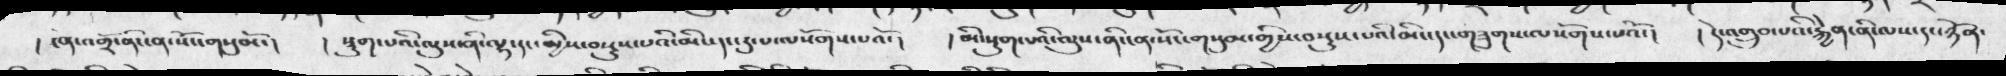། ངན་འགྲོ་ནི་ངན་སོང་གསུམོ་།  ། སྡུག་པའི་ལུས་ནི་ལྷ་དང་མྱིས་བསྡུས་པའི་མིང་དང་རུ་པ་ལསོགས་པའོ་།  །  མི་སྡུག་པའི་ལུས་ནི་ངན་སོང་གསུམ་གྱིས་བསྡུས་པའི་མིང་དང་གཟུགས་ལསོགས་པའོ་།  ། དེ་འགྲུབ་པའི་རྐྱེན་ནི་ལས་དང་ཉོན་
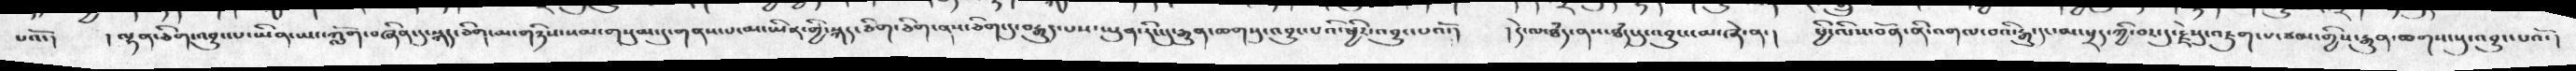པའོ་།  ། ལྷན་ཅིག་འབྱུང་པ་ཡིན་ཡང་ཀློག་བཞིན་དུ་སྐད་ཅིག་མ་གཉིས་སམ་གསུམ་དུ་གནས་པ་མ་ཡིན་གྱི་སྐད་ཅིག་ཅིག་ནས་ཅིག་དུ་བརྒྱུད་པས་ཡུན་རིང་དུ་རྒྱུན་ཆགསུ་འབྱུང་པའི་ཕྱིར་འབྱུང་པའོ་།  ། དེ་ལ་ཐཾད་ནས་ཐཾད་དུ་འབྱུང་ངམ་ཞེ་ན་།  པྱི་འི་ས་བོན་ནི་འགལ་བའི་རྒྱུ་དང་མ་ཕྲད་ཀྱི་བར་དུ་རྗེསུ་འཇུག་པ་ཙམ་གྱིས་རྒྱུན་ཆགས་པུ་འབྱུང་པའོ་།
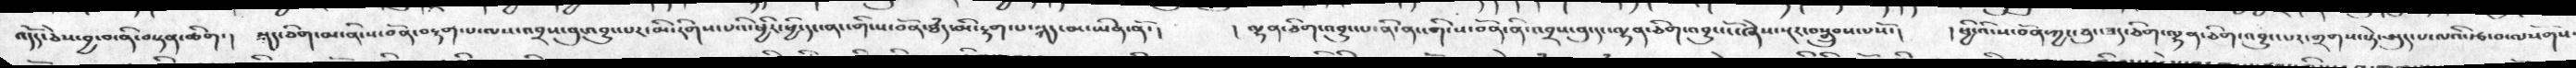འདོད་ཅེས་བྱ་བ་ནི་བསྟན་ཆིག་།  སྐད་ཅིག་མ་ནི་ས་བོན་བརྟག་པ་ལས་འབྲས་བུ་འབྱུང་པར་མི་རིགས་པའི་ཕྱིར་ཕྱི་དང་ནང་གི་ས་བོན་ཐཾད་མི་རྟག་པ་སྐད་མ་ཡིན་ནོ་།   ། ལྷན་ཅིག་འབྱུང་པ་ནི་ནང་གི་ས་བོན་ནི་འབྲས་བུ་དང་ལྷན་ཅིག་འབྱུང་ངོ་ཞེས་སྔར་བསྒྲུབས་པསོ་།  ། ཕྱིའི་ས་བོན་ཀྱང་ཅུང་ཟད་ཅིག་ལྷན་ཅིག་འབྱུང་པར་གྲགས་སྟེ་མུད་པ་ལའི་རྩ་བ་ལསོགས
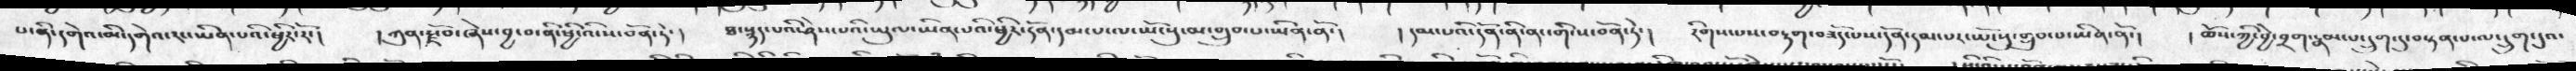པ་ནི་དགེའ་མི་དགེའ་རང་ཡིན་པའི་ཕྱིར་རོ་།  ། ཀུན་རྫོབ་ཞེས་བྱ་བ་ནི་ཕྱིའི་ས་བོན་ཏེ་།  ཐ་སྙད་པའི་ཤེས་པའི་ཡུལ་ཡིན་པའི་ཕྱིར་དོན་དམ་པ་ལ་ཡོངསུ་མ་གྲུབ་པ་ཡིན་ནོ་།  ། དམ་པའི་དོན་ནི་ནང་གི་ས་བོན་ཏེ་།  རིགས་པས་བརྟག་བཟོད་པས་དོན་དམ་པར་ཡོངསུ་གྲུབ་པ་ཡིན་ནོ་།  ། ཆོས་ཀྱི་བྱེ་བྲག་རྣམས་པ་དྲུག་དུ་བསྟན་པ་ལ་དྲུག་དུའ་
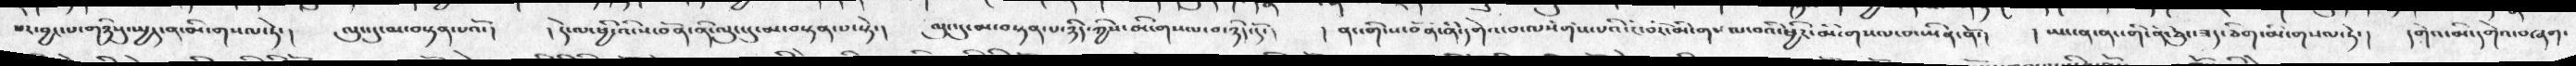པར་བྱང་པ་གཉིསུ་སྤྱད་ན་མི་གསལ་ཏེ་།  ལུང་དུ་མ་བསྟན་པའོ་།  ། དེ་ལ་ཕྱི་འི་ས་བོན་ནི་ལུང་དུ་མ་བསྟན་པ་སྟེ་།  ལུང་དུ་མ་བསྟན་པ་ཉིད་ཀྱིས་མི་གསལ་བ་ཉིད་དོ་།  ། ནང་གི་ས་བོན་ནི་དགེའ་བ་ལསོགས་པའི་ངོ་བོར་མི་གསལ་བའི་ཕྱིར་མི་གསལ་བ་ཡིན་ནོ་།  ། ཡང་ན་ནང་གི་ནི་ཅུང་ཟད་ཅིག་མི་གསལ་ཏེ་།  དགེའ་མི་དགེའ་བཞག་
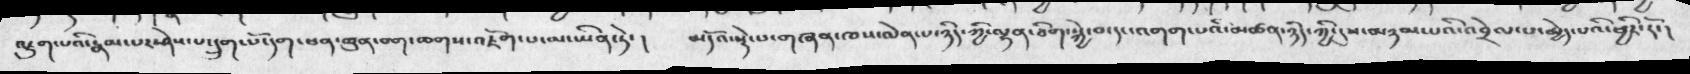འཇུག་པའི་རྣམ་པར་ཤེས་པ་དྲུག་པོ་དག་ཕན་ཚུན་བག་ཆགས་འཇོག་པ་མ་ཡིན་ཏེ་།  མདོའ་སྡེ་པ་གཞན་ཁས་ལེན་པ་ཉིད་ཀྱི་ལྷན་ཅིག་སྐྱེ་བ་དང་འགག་པའི་མཚན་ཉིད་ཀྱི་དུས་མཉམ་པའི་འབྲེལ་པ་མྱེད་པའི་ཕྱིར་རོ་།
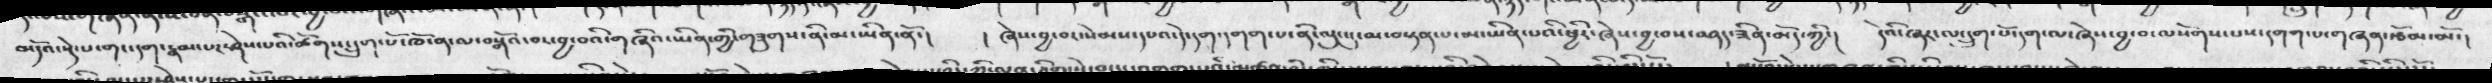མདོའ་སྡེ་པ་གང་དག་རྣམ་པར་ཤེས་པའི་ཚོགས་དྲུག་པོ་ཁོ་ན་ལ་བསྒོའ་བར་བྱ་བའི་གཞིའ་ཡིན་གྱི་གཟུགས་ནི་མ་ཡིན་ནོ་།    ། ཞེས་བྱ་བར་སེམས་དཔའ་དེ་དག་དགག་པ་ནི་ལུང་དུ་མ་བསྟན་པ་མ་ཡིན་པའི་ཕྱིར་ཞེས་བྱ་བས་བཤད་ཟིན་མོད་ཀྱི་།   དེའི་ཞར་ལ་དྲུག་པོ་དག་ལ་ཞེས་བྱ་བ་ལསོགས་པས་དགག་པ་གཞན་རྩོམ་མོ་།
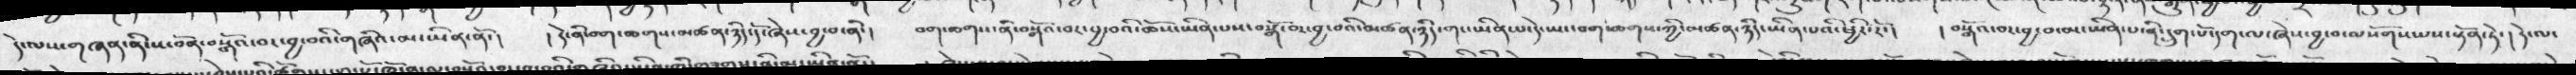དེ་ལས་གཞན་ནི་ས་བོན་བསྒོའ་བར་བྱ་བའི་གཞིའ་མ་ཡིན་ནོ་།   ། དེ་ནི་བག་ཆགས་མཚན་ཉིད་དོ་ཞེས་བྱ་བ་ནི་།   བག་ཆགས་ནི་བསྒོའ་བར་བྱ་བའི་ཆོས་ཡིན་པས་བསྒོ་བར་བྱ་བའི་མཚན་ཉིད་གང་ཡིན་པ་དེ་ཡང་བག་ཆགས་ཀྱི་མཚན་ཉིད་ཡིན་པའི་ཕྱིར་རོ་།  ། བསྒོའ་བར་བྱ་བ་མ་ཡིན་པ་ནི་དྲུག་པོ་དག་ལ་ཞེས་བྱ་བ་ལསོགས་པས་སྟོན་ཏེ་།  དེ་ལ་
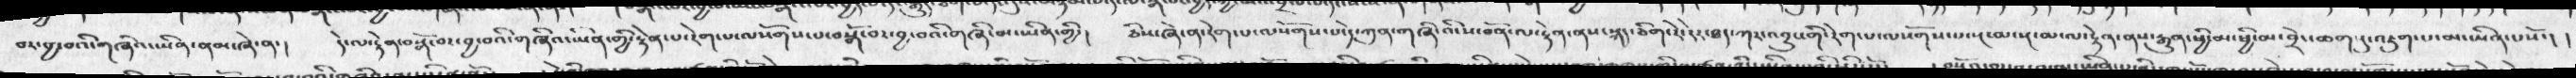བར་བྱ་བའི་གཞིའ་ཡིན་ནམ་ཞེ་ན་།    དེ་ལ་རྟེན་བསྒོ་བར་བྲ་བའི་གཞིའ་ཡིན་གྱི་རྟེན་པ་རེག་པ་ལསོགས་པ་བསྒོ་བར་བྱ་བའི་གཞི་མ་ཡིན་གྱི་།   ཅིས་ཞེ་ན་རེག་པ་ལསོགས་པ་དེ་ཀུན་གཞིའི་ས་བོན་ལ་རྟེན་ནས་སྐད་ཅིག་རེ་རེར་ཐད་ཀར་འབྱུང་གི་རེག་པ་ལསོགས་པ་སྔ་མ་སྔ་མ་ལ་རྟེན་ནས་རྒུན་ཕྱི་མ་བྲེང་ཆགསུ་འཇུག་པ་མ་ཡིན་པསོ་།  །
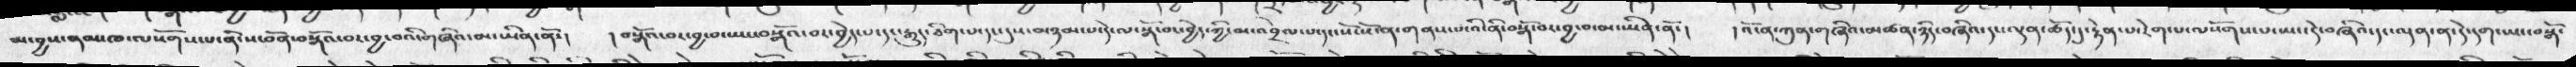མ་བྱས་ནམ་ཁ་ལསོགས་པ་ནི་ས་བོན་བསྒོའ་བར་བྱ་བའི་གཞིའ་མ་ཡིན་ནོ་།  ། བསྒོའ་བར་བྱ་བ་ཡང་བསྒོའ་བར་བྱེད་པ་དང་རྒྱུད་ཐིག་པ་དང་དུས་མཉམ་པ་དེ་ལ་སྒོ་བང་བྱེད་ཀྱི་མ་འབྲེལ་པ་དང་སོ་སོ་ན་གནས་པའི་ནི་བསྒོ་བར་བྱ་བ་མ་ཡིན་ནོ་། །  འོ་ན་ཀུན་གཞིའ་མཚན་ཉིད་བཞིའ་དང་ལྡན་ཆོད་དུ་རྟེན་པ་རེག་པ་ལསོགས་པ་ཡང་དེ་བཞིའ་དང་ལྡན་ན་དེ་དག་ཡང་བསྒོ་
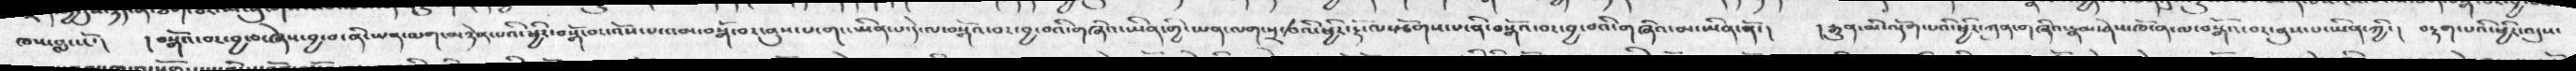ཁས་བླངསོ་།  ། བསྒོའ་བར་བྱ་བ་ཞེས་བྱ་བ་ནི་ཡན་ལག་མཉེན་པའི་ཕྱིར་བསྒོ་བར་འོས་པ་འམ་བསྒོ་བར་ནུས་པ་གང་ཡིན་པ་དེ་ལ་བསྒོའ་བར་བྱ་བའི་གཞིའ་ཡིན་གྱི་ཡན་ལག་སྲ་བའི་ཕྱིར་རྡོ་ལསཙོགས་པ་ནི་བསྒོའ་བར་བྱ་བའི་གཞིའ་མ་ཡིན་ནོ་།  ། རྒྱུན་མི་ལྡོག་པའི་ཕྱིར་ཀུན་གཞིའ་རྣམ་ཤེས་ཁོ་ན་བསྒོའ་བར་ནུས་པ་ཡིན་ཀྱི་། བརྟག་པའི་ཕྱིར་འདུས་
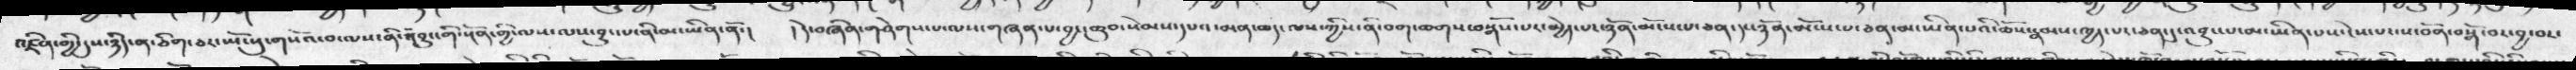འཛིན་གྱི་དུས་ཉིད་ན་ཅིག་ཅར་ཡོངསུ་གསོའ་བ་ལས་ནི་འབྱུང་གི་སྔོན་གྱི་ལས་ལས་བྱུང་པ་ནི་མ་ཡིན་ནོ་།  ། དེ་བཞིན་གཤེགས་པ་ལས་གཞན་པ་བྱང་ཆུབ་སེམས་དཔའ་མན་ཆད་ལས་ཀྱིས་ནི་བག་ཆགས་བསྒོས་པར་མྱེད་པ་ཉོན་མོངས་པ་ཅན་དང་ཉོན་མོངས་པ་ཅན་མ་ཡིན་པའི་ཆོས་རྣམས་ཁྱད་པར་ཅན་དུ་འབྱུང་པ་མ་ཡིན་པས་ངེས་པ་ས་བོན་བསྒོ་བར་བྱ་བར་
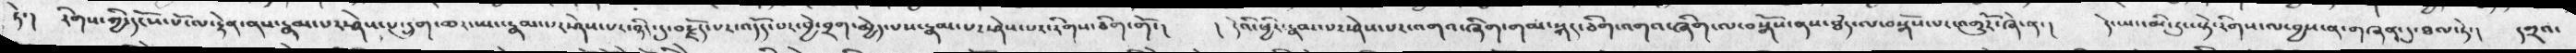ཏེ་།  རིགས་ཀྱི་དངོས་པོ་ལ་རྟེན་་ནས་རྣམ་པར་ཤེས་པ་དྲུག་ཆར་ཡང་རྣམ་པར་ཤེས་པར་ཉིད་དུ་བརྗོད་པར་འདོད་པར་བྱེ་བྲག་མྱེད་པས་རྣམ་པར་ཤེས་པར་རིགས་ཅིག་གོ་།    ། དེའི་ཕྱིར་རྣམ་པར་ཤེས་པར་འགའ་ཞིག་གམ་སྐད་ཅིག་འགའ་ཞིག་ལ་བསྒོས་ནས་ཐཾད་ལ་བསྒོས་པར་འགྱུརོ་ཞེ་ན་།  དེ་ཡང་མི་རུང་སྟེ་རིགས་ལ་བྱས་ན་གཞན་དུ་ཐལ་ཏེ་།  དགྲའ་
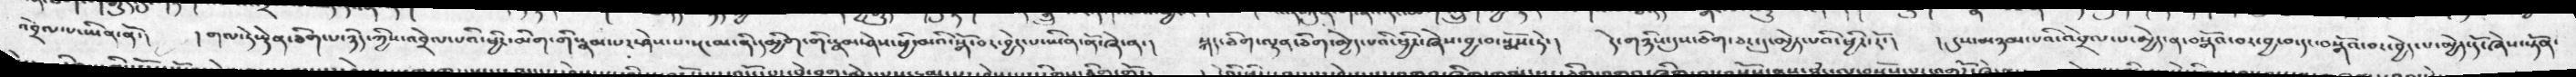འབྲེལ་པ་ཡིན་ནོ་།  ། གལ་ཏེ་ཡྟོན་ཅིག་པ་ཉིད་ཀྱིས་འབྲེལ་པའི་ཕྱིར་མིག་གི་རྣམ་པར་ཤེས་པ་སྔ་མ་ནི་དམྱིག་གི་རྣམ་ཤེས་ཕྱི་མའི་སྒོ་བར་བྱེད་པ་ཡིན་ནོ་ཞེ་ན་།  སྐད་ཅིག་ལྷ་ཅིག་མྱེད་པའི་ཕྱིར་ཞེས་བྱ་བ་སྨོས་ཏེ་།   དེ་གཉིས་དུས་ཅིག་ཅར་དུ་མྱེད་པའི་ཕྱིར་རོ་།  ། དུས་མཉམ་པའི་འབྲེལ་པ་མྱེད་ན་བསྒོའ་བར་བྱེད་པ་མྱེད་དོ་ཞེས་སྟོན་
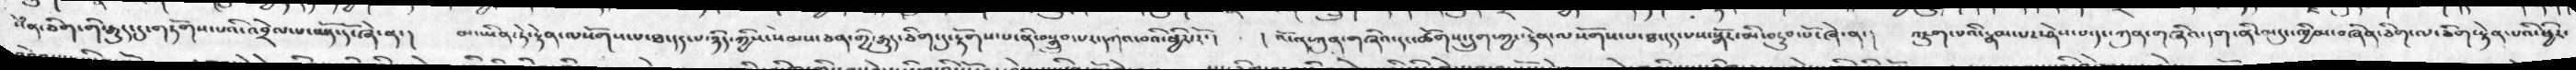སེཾན་ཅིག་གི་རྒྱུད་དུ་གཏོགས་པའི་འབྲེལ་པ་ཡོད་དོ་ཞེ་ན་།   མ་ཡིན་ཏེ་རྟེན་ལསོགས་པ་ཐ་དད་པ་ཉིད་ཀྱིས་སེམས་ཅན་གྱི་རྒྱུད་ཅིག་དུ་རྟོགས་པ་ནི་བསྒྲུབ་པར་དགའ་བའི་ཕྱིར་རོ་།   །  འོ་ན་ཀུན་གཞིའ་དང་ཚོགས་དྲུག་ཀྱང་རྟེན་ལསོགས་པ་ཐ་དད་པས་བསྒོར་མི་བཏུབ་པོ་ཞེ་ན་།   འཇུག་པའི་རྣམ་པར་ཤེས་པ་དང་ཀུན་གཞིའ་དག་ནི་མདུང་ཁྱིམ་བཞིན་ཅིག་རྟེན་པའི་ཕྱིར་
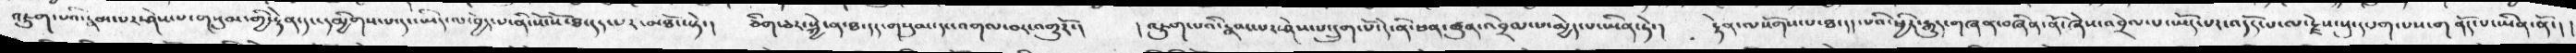འཇུག་པའི་རྣམ་པར་ཤེས་པ་གསུམ་གྱི་རྟེན་དང་དམྱིགས་པ་དང་ཡིད་ལ་བྱེད་པ་ནི་སོ་སོ་ཐ་དད་པར་མཐོང་སྟེ་།   ཅིག་ཅར་སྐྱེ་ན་ཐ་དད་གསུམ་དང་འགལ་བར་འགྱུརོ་།   ། འཇུག་པའི་རྣམ་པར་ཤེས་པ་དྲུག་པོ་དེ་ནི་ཕན་ཚུན་འབྲེལ་པ་མྱེད་པ་ཡིན་ཏེ་།  རྟེན་ལསོགས་པ་ཐ་དད་པའི་ཕྱིར་རྒྱུད་གཞན་བཞིན་ནོ་ཞེས་འབྲེལ་པ་ཡོད་པར་འདོད་པ་ལ་རྗེས་སུ་དཔག་པས་གནོད་པ་ཡིན་ནོ་།
